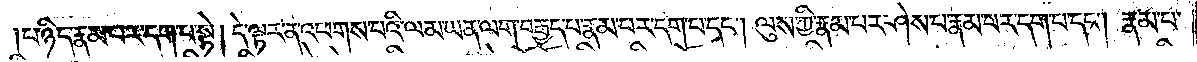པ་ཉིད་རྣམ་པར་དག་པ་སྟེ། དེ་ལྟར་ན་འཕགས་པའི་ལམ་ཡན་ལག་བརྒྱད་པ་རྣམ་པར་དག་པ་དང༌། ལུས་ཀྱི་རྣམ་པར་ཤེས་པ་རྣམ་པར་དག་པ་དང༌། རྣམ་པ་
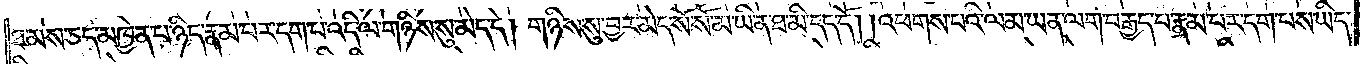ཐམས་ཅད་མཁྱེན་པ་ཉིད་རྣམ་པར་དག་པ་འདི་ལ་གཉིས་སུ་མེད་དེ། གཉིས་སུ་བྱར་མེད་སོ་སོ་མ་ཡིན་ཐ་མི་དད་དོ། །འཕགས་པའི་ལམ་ཡན་ལག་བརྒྱད་པ་རྣམ་པར་དག་པས་ཡིད་
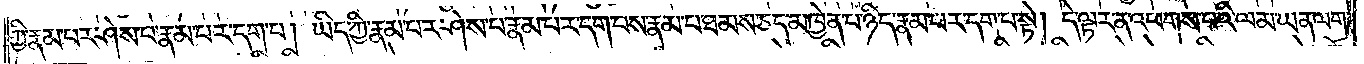ཀྱི་རྣམ་པར་ཤེས་པ་རྣམ་པར་དག་པ། ཡིད་ཀྱི་རྣམ་པར་ཤེས་པ་རྣམ་པར་དག་པས་རྣམ་པ་ཐམས་ཅད་མཁྱེན་པ་ཉིད་རྣམ་པར་དག་པ་སྟེ། དེ་ལྟར་ན་འཕགས་པའི་ལམ་ཡན་ལག་
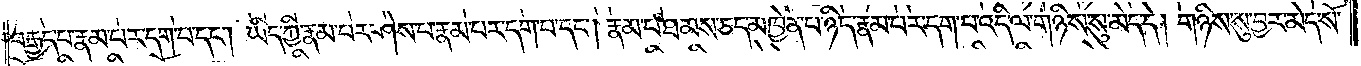བརྒྱད་པ་རྣམ་པར་དག་པ་དང༌། ཡིད་ཀྱི་རྣམ་པར་ཤེས་པ་རྣམ་པར་དག་པ་དང༌། རྣམ་པ་ཐམས་ཅད་མཁྱེན་པ་ཉིད་རྣམ་པར་དག་པ་འདི་ལ་གཉིས་སུ་མེད་དེ། གཉིས་སུ་བྱར་མེད་སོ་
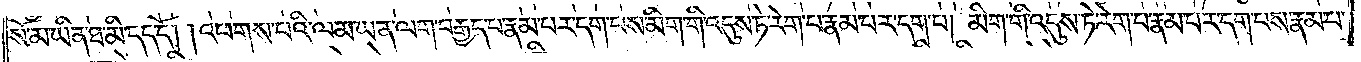སོ་མ་ཡིན་ཐ་མི་དད་དོ། །འཕགས་པའི་ལམ་ཡན་ལག་བརྒྱད་པ་རྣམ་པར་དག་པས་མིག་གི་འདུས་ཏེ་རེག་པ་རྣམ་པར་དག་པ། མིག་གི་འདུས་ཏེ་རེག་པ་རྣམ་པར་དག་པས་རྣམ་པ་
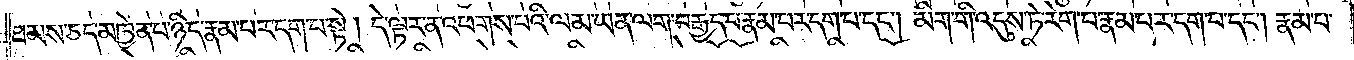ཐམས་ཅད་མཁྱེན་པ་ཉིད་རྣམ་པར་དག་པ་སྟེ། དེ་ལྟར་ན་འཕགས་པའི་ལམ་ཡན་ལག་བརྒྱད་པ་རྣམ་པར་དག་པ་དང༌། མིག་གི་འདུས་ཏེ་རེག་པ་རྣམ་པར་དག་པ་དང༌། རྣམ་པ་
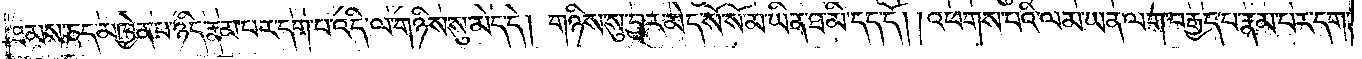ཐམས་ཅད་མཁྱེན་པ་ཉིད་རྣམ་པར་དག་པ་འདི་ལ་གཉིས་སུ་མེད་དེ། གཉིས་སུ་བྱར་མེད་ས་སོ་མ་ཡིན་ཐ་མི་དད་དོ། །འཕགས་པའི་ལམ་ཡན་ལག་བརྒྱད་པ་རྣམ་པར་དག་
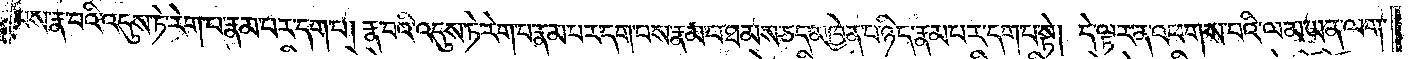པས་རྣ་བའི་འདུས་ཏེ་རེག་པ་རྣམ་པར་དག་པ། རྣ་བའི་འདུས་ཏེ་རེག་པ་རྣམ་པར་དག་པས་རྣམ་པ་ཐམས་ཅད་མཁྱེན་པ་ཉིད་རྣམ་པར་དག་པ་སྟེ། དེ་ལྟར་ན་འཕགས་པའི་ལམ་ཡན་ལག་
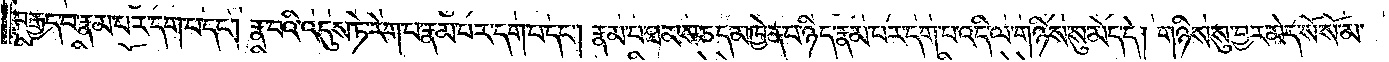བརྒྱད་པ་རྣམ་པར་དག་པ་དང༌། རྣ་བའི་འདུས་ཏེ་རེག་པ་རྣམ་པར་དག་པ་དང༌། རྣམ་པ་ཐམས་ཅད་མཁྱེན་པ་ཉིད་རྣམ་པར་དག་པ་འདི་ལ་གཉིས་སུ་མེད་དེ། གཉིས་སུ་བྱར་མེད་སོ་སོ་མ་
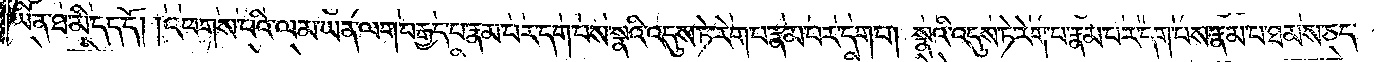ཡིན་ཐ་མི་དད་དོ། །འཕགས་པའི་ལམ་ཡན་ལག་བརྒྱད་པ་རྣམ་པར་དག་པས་སྣའི་འདུས་ཏེ་རེག་པ་རྣམ་པར་དག་པ། སྣའི་འདུས་ཏེ་རེག་པ་རྣམ་པར་དག་པས་རྣམ་པ་ཐམས་ཅད་
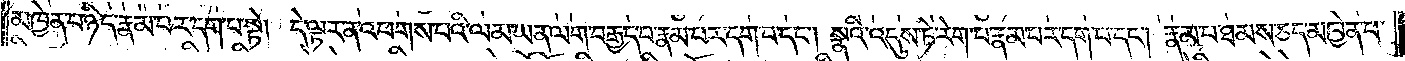མཁྱེན་པ་ཉིད་རྣམ་པར་དག་པ་སྟེ། དེ་ལྟར་ན་འཕགས་པའི་ལམ་ཡན་ལག་བརྒྱད་པ་རྣམས་པར་དག་པ་དང༌། སྣའི་འདུས་ཏེ་རེག་པ་རྣམ་པར་དག་པ་དང༌། རྣམ་པ་ཐམས་ཅད་མཁྱེན་པ་
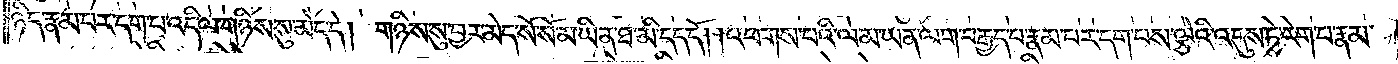ཉིད་རྣམ་པར་དག་པ་འདི་ལ་གཉིས་སུ་མེད་དེ། གཉིས་སུ་བྱར་མེད་སོ་སོ་མ་ཡིན་ཐ་མི་དད་དོ། །འཕགས་པའི་ལམ་ཡན་ལག་བརྒྱད་པ་རྣམ་པར་དག་པས་ལྕེའི་འདུས་ཏེ་རེག་པ་རྣམ་
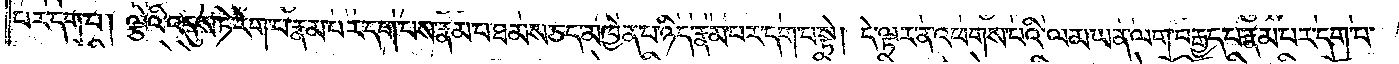པར་དག་པ། ལྕེའི་འདུས་ཏེ་རེག་པ་རྣམ་པར་དག་པས་རྣམ་པ་ཐམས་ཅད་མཁྱེན་པ་ཉིད་རྣམ་པར་དག་པ་སྟེ། དེ་ལྟར་ན་འཕགས་པའི་ལམ་ཡན་ལག་བརྒྱད་པ་རྣམ་པར་དག་པ་
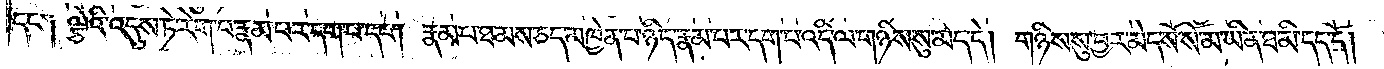དང་༑ ལྕེའི་འདུས་ཏེ་རེག་པ་རྣམ་པར་དག་པ་དང༌། རྣམ་པ་ཐམས་ཅད་མཁྱེན་པ་ཉིད་རྣམ་པར་དག་པ་འདི་ལ་གཉིས་སུ་མེད་དེ། གཉིས་སུ་བྱར་མེད་སོ་སོ་མ་ཡིན་ཐ་མི་དད་དོ། །
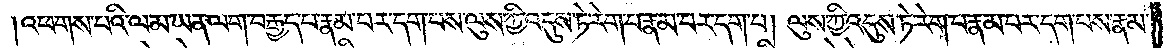འཕགས་པའི་ལམ་ཡན་ལག་བརྒྱད་པ་རྣམ་པར་དག་པས་ལུས་ཀྱི་འདུས་ཏེ་རེག་པ་རྣམ་པར་དག་པ། ལུས་ཀྱི་འདུས་ཏེ་རེག་པ་རྣམ་པར་དག་པས་རྣམ་
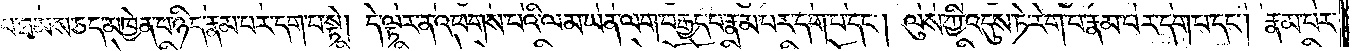པ་ཐམས་ཅད་མཁྱེན་པ་ཉིད་རྣམ་པར་དག་པ་སྟེ། དེ་ལྟར་ན་འཕགས་པའི་ལམ་ཡན་ལག་བརྒྱད་པ་རྣམ་པར་དག་པ་དང༌། ལུས་ཀྱི་འདུས་ཏེ་རེག་པ་རྣམ་པར་དག་པ་དང༌། རྣམ་པར་
